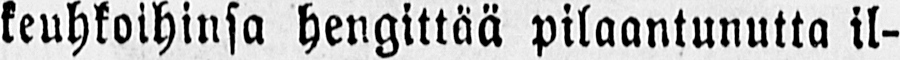keuhkoihinsa hengittää pilaantunutta il-
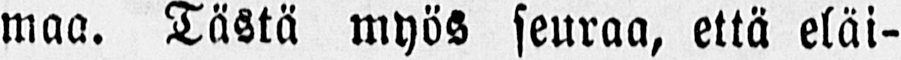maa. Tästä myös seuraa, että eläi-
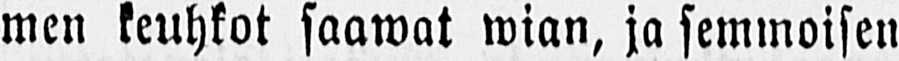men keuhkot saawat wian, ja semmoisen
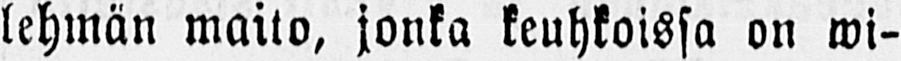lehmän maito, jonka keuhkoissa on wi-
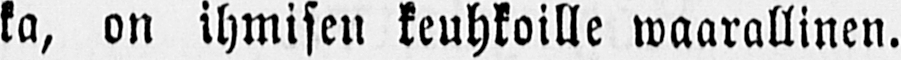ka, on ihmisen keuhkoille waarallinen.
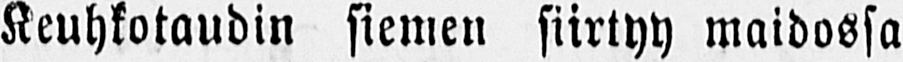Keuhkotaudin siemen siirtyy maidossa
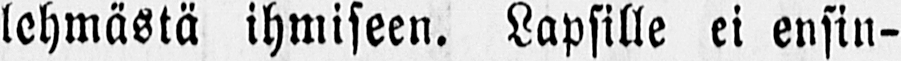lehmästä ihmiseen. Lapsille ei ensin-
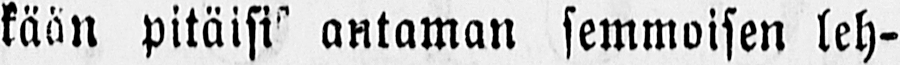kään pitäisi antaman semmoisen leh-
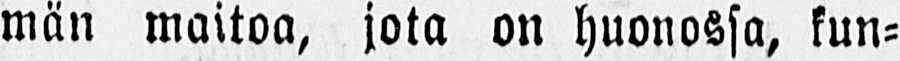män maitoa, jota on huonossa, kun-
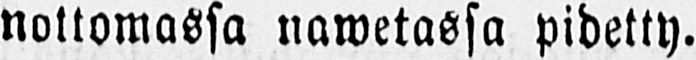nottomassa nawetassa pidetty.
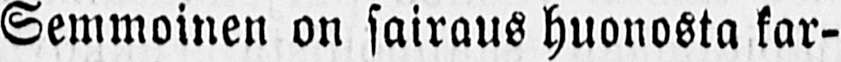Semmoinen on sairaus huonosta kar-
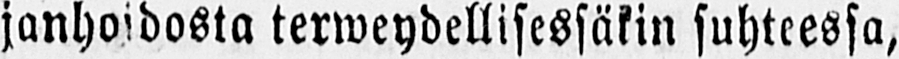janhoidosta terweydellisessäkin suhteessa,
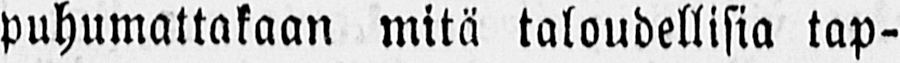puhumattakaan mitä taloudellisia tap-
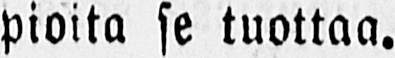pioita se tuottaa.
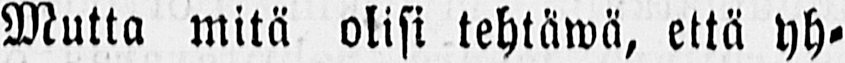Mutta mitä olisi tehtäwä, että yh-
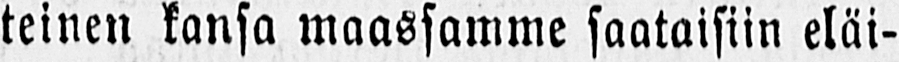teinen kansa maassamme saataisiin eläi-
